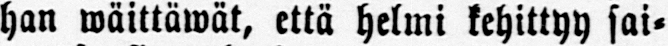han wäittäwät, että helmi kehittyy sai-
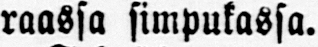raassa simpukassa.
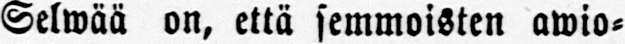Selwää on, että semmoisten awio-
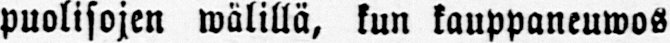puolisojen wälillä, kun kauppaneuwos
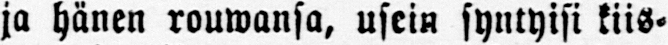ja hänen rouwansa, usein syntyisi kiis-
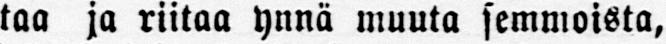taa ja riitaa ynnä muuta semmoista,
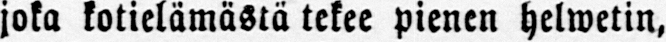joka kotielämästä tekee pienen helwetin,
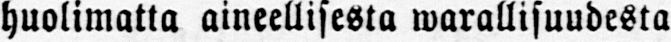huolimatta aineellisesta warallisuudesta
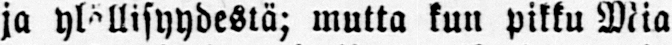ja ylellisyydestä; mutta kun pikku Mia
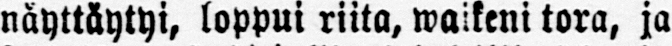näyttäytyi, loppui riita, waikeni tora, ja
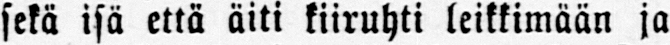sekä isä että äiti kiiruhti leikkimään ja
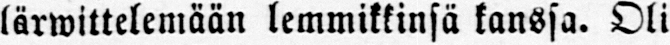lärwittelemään lemmikkinsä kanssa. Oli
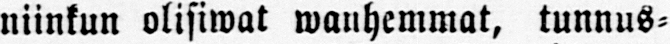niinkun olisiwat wanhemmat, tunnus-
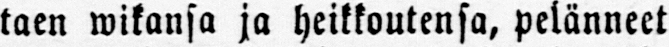taen wikansa ja heikkoutensa, pelänneet
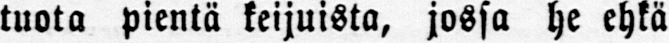tuota pientä keijuista, jossa he ehkä
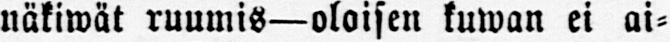näkiwät ruumis—oloisen kuwan ei ai-
